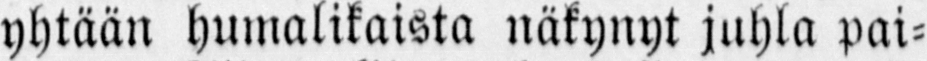yhtään humalikaista näkynyt juhla pai-
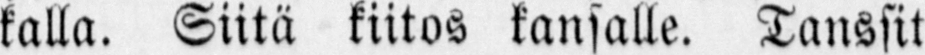kalla. Siitä kiitos kansalle. Tanssit
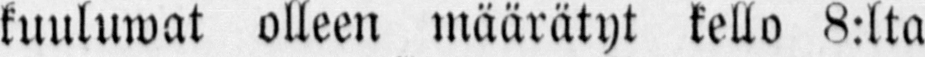kuuluwat olleen määrätyt kello 8:lta
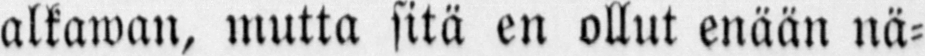alkawan, mutta sitä en ollut enään nä-
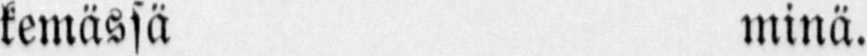kemässä minä.
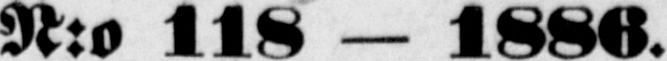N:o 118 — 1886.
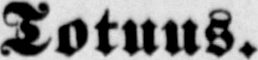Totuus.
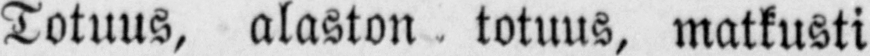Totuus, alaston, totuus, matkusti
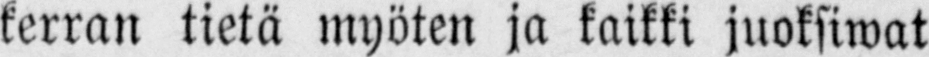kerran tietä myöten ja kaikki juoksiwat
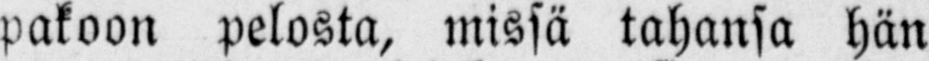pakoon pelosta, missä tahansa hän
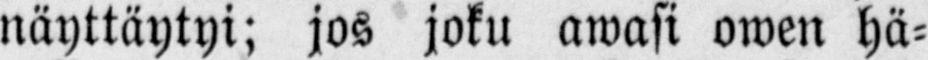näyttäytyi; jos joku awasi owen hä-
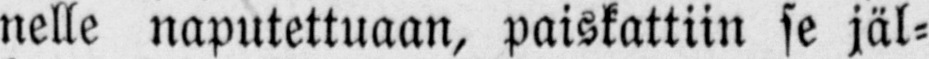nelle naputettuaan, paiskattiin se jäl-
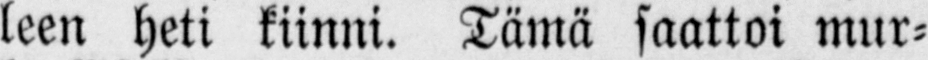leen heti kiinni. Tämä saattoi mur-
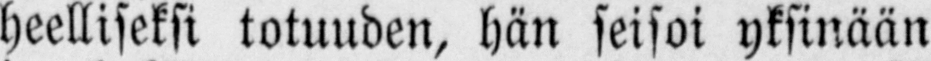heelliseksi totuuden, hän seisoi yksinään
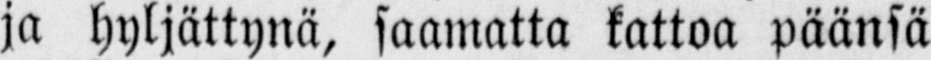ja hyljättynä, saamatta kattoa päänsä
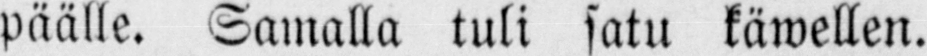päälle. Samalla tuli satu käwellen.
